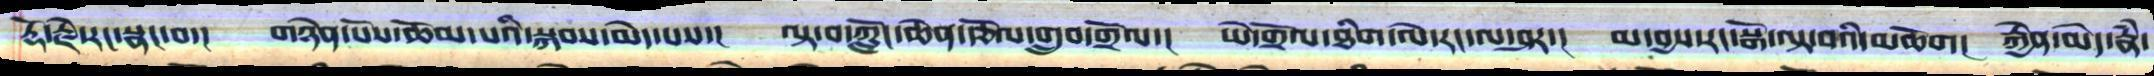རྡོ་རྗེ་རང་སྣང་བ་། གཉེན་པོས་ཆོམས་པའི་སྐབས་མེད་པས་། ལྟ་བ་ཀློང་ཆེན་རྩོལ་བསྒྲུབ་གྲོལ་། ཡེ་གྲོལ་ཐིག་ལེ་རང་ལ་ཤར་། མ་བྱས་རང་སྒོ་ལྟ་བའི་མཆོག། རྐྱེན་མེད་རྣཾ་
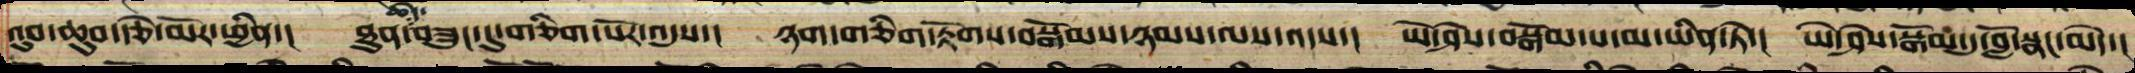འུབ་ཆུབ་རྩེ་མོར་ཕྱིན་།   ཐུན་གཟུང་དུ་གཅིག་པོར་འདུས་།  ཉག་གཅིག་རྟོགས་བསྒོམ་ཉམས་ལས་འདས་།  ཡེ་ཤེས་བསྒོམ་པ་མ་ཡིན་ཏེ་།   ཡེ་ཤེས་བསྒོམ་དུ་བློ་སྣང་མེད་།
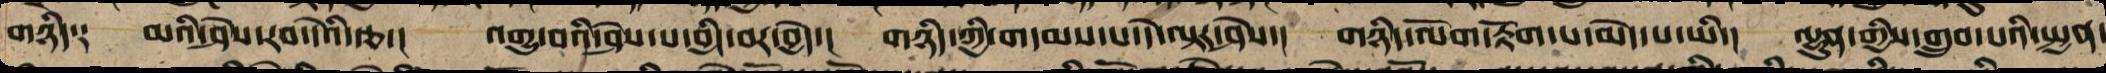གཉིད༑  མའི་ཤེས་རབ་དེའི་རྩ་།  འགྱུ་བའི་ཤེས་པ་བྱིང་བར་བྱེད་།   གཉིད་ཀྱི་གདམས་པ་དེ་ལྟར་ཤེས་།  གཉིད་ལོག་རྟོག་པ་མེད་པ་ཡི་།  ལྷུན་གྱིས་གྲུབ་པའི་སྤྱན་
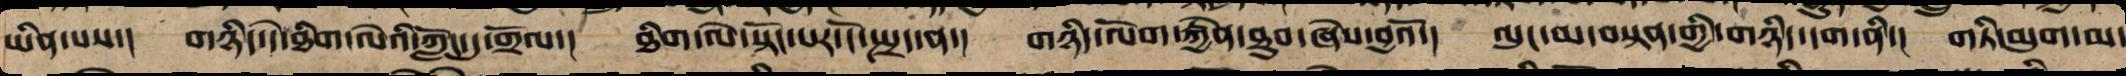ཡིན་པས་།  གཉིད་དེ་ཐིག་ལེའི་ཀློང་དུ་གྲོལ་།  ཐིག་ལེ་སྟོང་པར་ངོ་སྤྲད་ན་། གཉིད་ལོག་རྐྱེན་ཐུབ་ཞེས་བྱའོ་།  ལུང་མ་བསྟན་གྱི་གཉིད་དག་ནི་།  གཏི་མུག་མ་
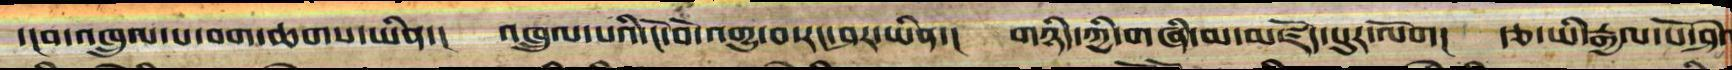དངབ་འཁྲུལ་པ་བག་ཆགས་ཡིན་།   འཁྲུལ་པའི་ངོ་བོ་འགྱུ་བ་རང་ཤར་ཡིན་།  གཉིད་ཀྱི་གཞི་མ་མཛོད་སུར་ལོག།  རྩ་ཡི་རྒྱལ་པོ་ཤེ
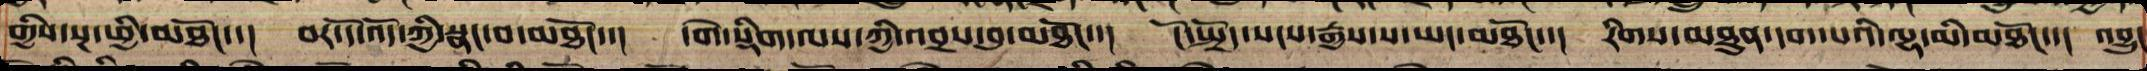གྱིས་སྔ་ཕྱི་མཐོང་་། བར་དོ་འོད་ཀྱི་སྣང་བ་མཐོང་་། དགེ་སྡིག་ལས་ཀྱི་འབྲས་བུ་མཐོང་་། ངོ་སྤྲོད་སངས་རྒྱས་ས་ཡང་མཐོང་་། རིགས་མཐུན་དག་པའི་ལྷ་མི་མཐོང་།་ འབྱུང
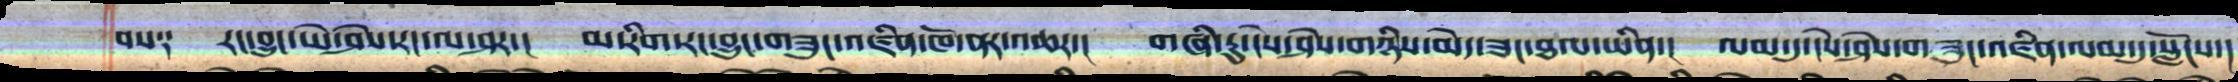བས༑  རང་བྱུང་ཡེ་ཤེས་རང་ལ་ཤར་།  མ་རིག་རང་བྱུང་གཟུང་འཛིན་ཁོ་ནར་འཆར་།  གཞི་རུ་ངེས་ཤེས་གཉིས་མེད་ཟང་ཐལ་ཡིན་།  ལམ་དུ་ངེས་ཤེས་གཟུང་འཛིན་ལམ་དུ་སློངས་།
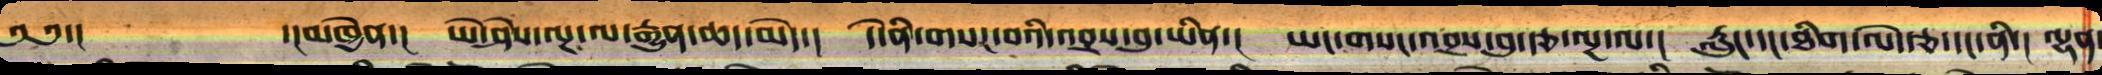༄༄་།          ་།མཁྱེན་།  ཡེ་ཤེས་ལྔ་ལ་རྒྱུན་ཆད་མེད་།  དེ་ནི་གསང་བའི་འབྲས་བུ་ཡིན་།  ཡང་གསང་འབྲས་བུ་རྩ་ལྔ་ལ་།   རླུང་དང་ཐིག་ལེ་རྩ་དང་ནི་། ལྷན་
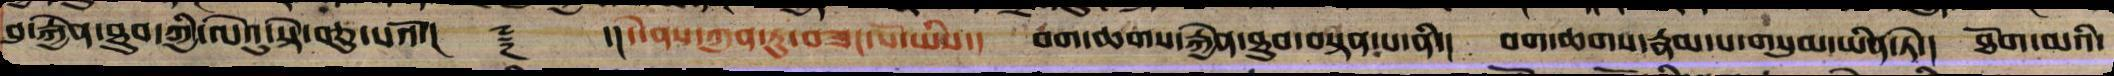བུ་རྐྱེན་ཐུབ་ཀྱི་ལེའུ་སྟེ་བཅུ་པའོ།།    ༈   ་།།དེ་ནས་ཀུན་ཏུ་བཟང་པོ་ཡིས་།   བག་ཆགས་རྐྱེན་ཐུབ་བསྟན་པ་ནི་།   བག་ཆགས་རྣམ་པ་གསུམ་ཡིན་ཏེ་།   ཐོག་མའི་
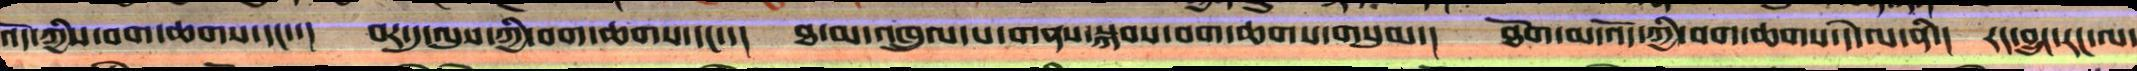འོད་ཀྱིས་བག་ཆགས་དང་།  བར་དུ་ལུས་ཀྱི་བག་ཆགས་དང་་།  ཐ་མ་འཁྲུལ་པ་གནས་སྐབས་བག་ཆགས་གསུམ་།  ཐོག་མ་འོད་ཀྱི་བག་ཆགས་དེ་ལ་ནི་།  རང་བྱུང་རང་ལ་
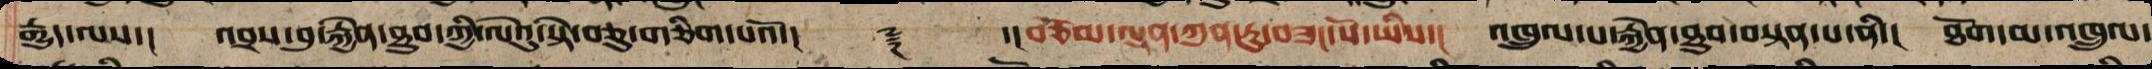རྒྱུད་ལས་།   འབྲས་བུ་རྐྱེན་ཐུབ་ཀྱི་ལེའུ་སྟེ་བཅུ་གཅིག་པའོ་།།     ༈     ་།།བཅོམ་ལྡན་ཀུན་ཏུ་བཟང་པོ་ཡིས་།  འཁྲུལ་པ་རྐྱེན་ཐུབ་བསྟན་པ་ནི་།  ཐོག་མ་འཁྲུལ་
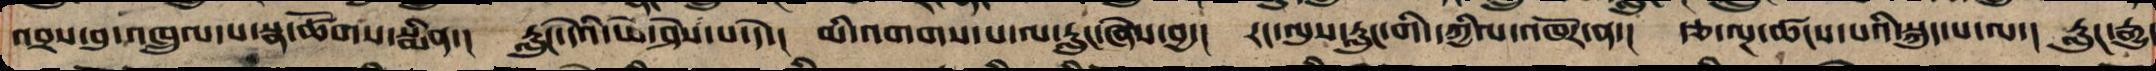འབྲས་བུ་འཁྲུལ་པ་སྣ་ཚོགས་སྨིན་།   རླུང་དེའི་ཡེ་ཤེས་པ་དེ་།  མི་འགགས་པ་ལ་རླུང་ཞེས་བྱ་།  རང་ལུས་རླུང་གི་དཀྱིལ་འཁོར་ན་།  རྩ་ལྔ་ཚངས་པའི་སྐུད་པ་ལ་།  རླུང་རྒྱུ་
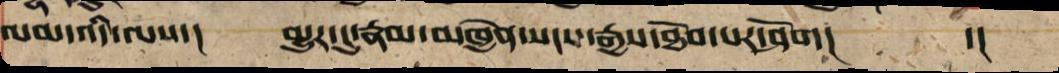ལམ་འདི་ལས་། མྱུར་དུ་རྣམ་མཁྱེན་སངས་རྒྱས་ཐོབ་པར་ཤོག། ་།
